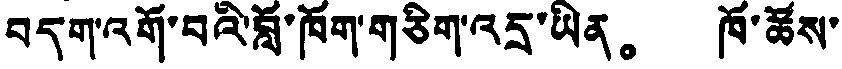བདག་འགོ་བའི་བློ་ཁོག་གཅིག་འདྲ་ཡིན。ཁོ་ཚོས་
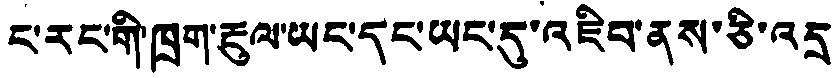ང་རང་གི་ཁྲག་རྡུལ་ཡང་དང་ཡང་དུ་འཇིབ་ནས་ཅི་འདྲ
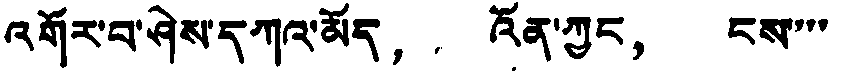འགོར་བ་ཤེས་དཀའ་མོད， འོན་ཀྱང， ངས་་་་
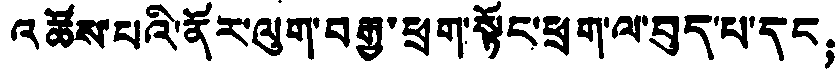འཚོས་པའི་ནོར་ལུག་བརྒྱ་ཕྲག་སྟོང་ཕྲག་ལ་བུད་པ་དང；
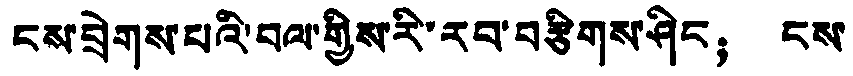ངས་བྲེགས་པའི་བལ་གྱིས་རི་རབ་བརྩིགས་ཤིང；ངས་
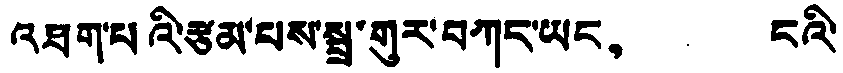འཐག་པའི་རྩམ་པས་སྤྲ་གུར་བཀང་ཡང， ངའི་
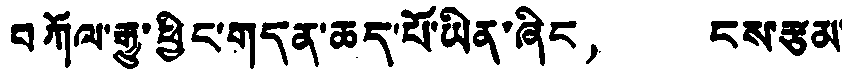བཀོལ་རྒྱུ་ཕྱིང་གདན་ཆད་པོ་ཡིན་ཞིང， ངས་རྩམ་
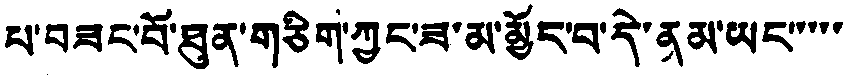པ་བཟང་པོ་ཐུན་གཅིག་ཀྱང་ཟ་མ་མྱོང་བ་དེ་ནམ་ཡང་་་་་
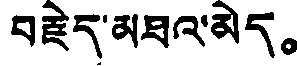བརྗེད་མཐའ་མེད。
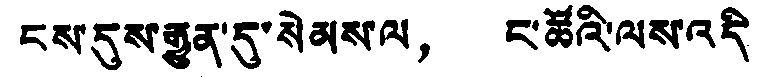ངས་དུས་རྒྱུན་དུ་སེམས་ལ， ང་ཚོའི་ལས་འདི
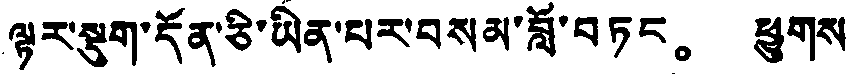ལྟར་སྡུག་དོན་ཅི་ཡིན་པར་བསམ་བློ་བཏང。 ཕྱུགས་
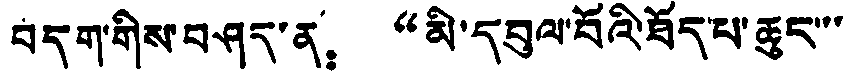བདག་གིས་བཤད་ན： “མི་དབུལ་བོའི་ཐོད་པ་ཆུང་་་
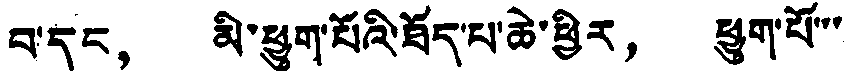བ་དང， མི་ཕྱུག་པོའི་ཐོད་པ་ཆེ་ཕྱིར， ཕྱུག་པོ་་་
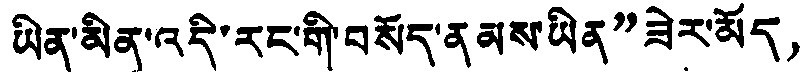ཡིན་མིན་འདི་རང་གི་བསོད་ནམས་ཡིན”ཟེར་མོད，
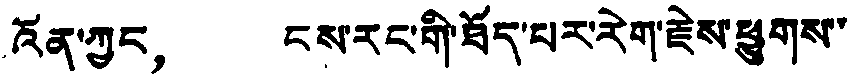འོན་ཀྱང， ངས་རང་གི་ཐོད་པར་རེག་རྗེས་ཕྱུགས་་
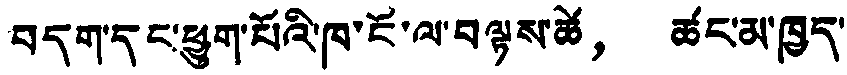བདག་དང་ཕྱུག་པོའི་ཁ་ངོ་ལ་བལྟས་ཚེ， ཚང་མ་ཁྱད་
